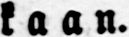kaan.
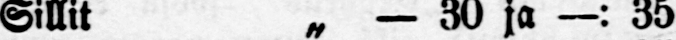Sillit „ — 30 ja —: 35
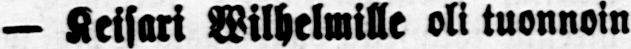— Keisari Wilhelmille oli tuonnoin
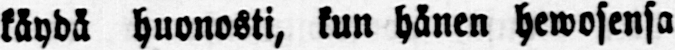käydä huonosti, kun hänen hewosensa
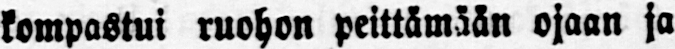kompastui ruohon peittämään ojaan ja
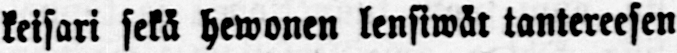keisari sekä hewonen lensiwät tantereesen
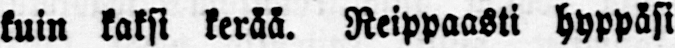kuin kaksi kerää. Reippaasti hyppäsi
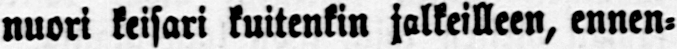nuori keisari kuitenkin jatkeilleen, ennen-
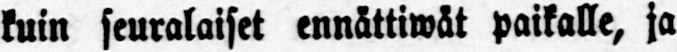kuin seuralaiset ennättiwät paikalle, ja
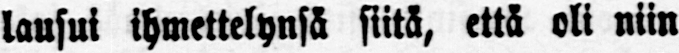lausui ihmettelynsä siitä, että oli niin
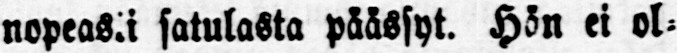nopeasti satulasta päässyt. Hän ei ol-
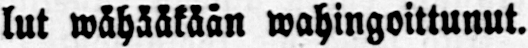lut wähääkään wahingoittunut.
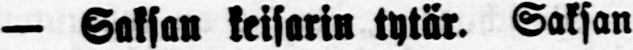— Saksan keisarin tytär. Saksan
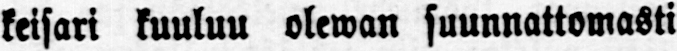keisari kuuluu olewan suunnattomasti
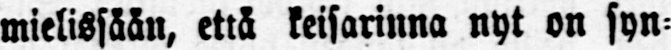mielissään, etkä keisarinna nyt on syn-
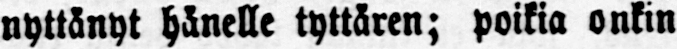nyttänyt hänelle tyttären; poikia onkin
